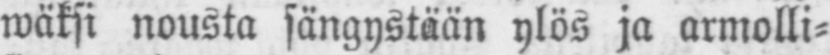wäksi nousta sängystään ylös ja armolli-
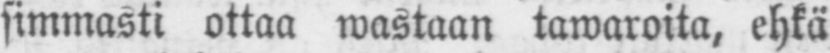simmasti ottaa wastaan tawaroita, ehkä
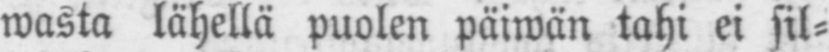wasta lähellä puolen päiwän tahi ei sil-
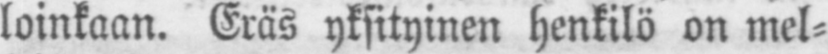loinkaan. Eräs yksityinen henkilö on mel-
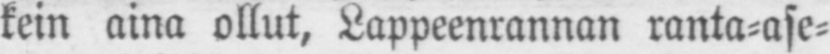kein aina ollut, Lappeenrannan ranta-ase-
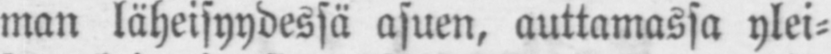man läheisyydessä asuen, auttamassa ylei-
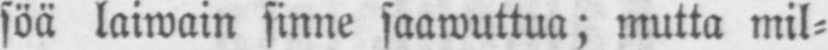söä laiwain sinne saawuttua; mutta mil-
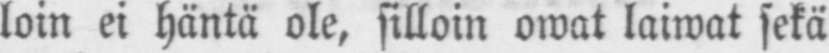loin ei häntä ole, silloin owat laiwat sekä
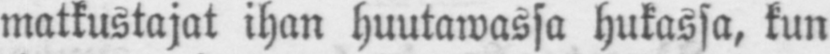matkustajat ihan huutawassa hukassa, kun
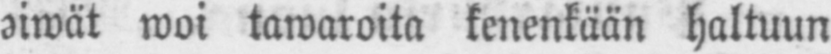siwät woi tawaroita kenenkään haltuun
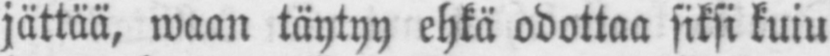jättää, waan täytyy ehkä odottaa siksi kuiu
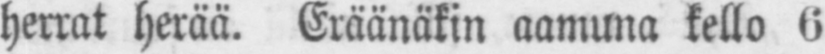herrat herää. Eräänäkin aamuna kello 6
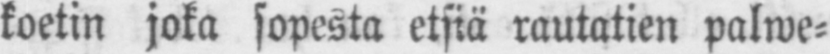koetin joka sopesta etsiä rautatien palwe-
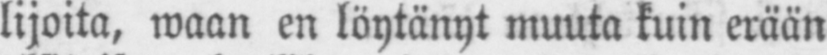lijoita, waan en löytänyt muuta kuin erään
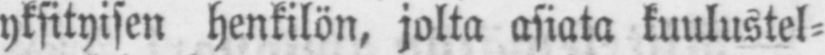yksityisen henkilön, jolta asiata kuulustel-
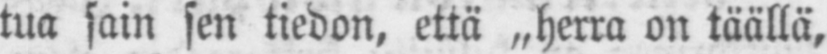tua sain sen tiedon, että „ herra on täällä,
